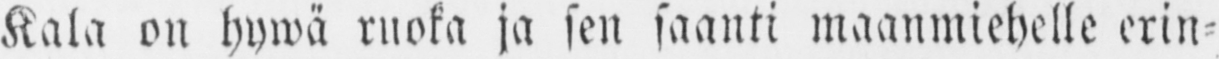Kala on hywä ruoka ja sen saanti maanmiehelle erin-
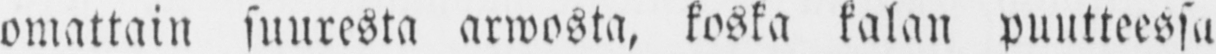omattain suuresta arwosta, koska kalan puutteessa
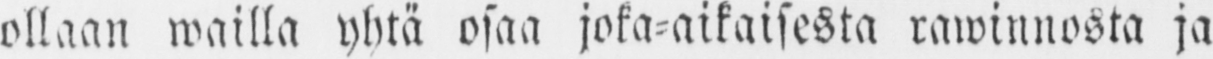ollaan wailla yhtä osaa joka-aikaisesta rawinnosta ja
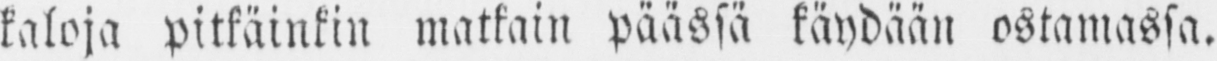kaloja pitkäinkin matkain päässä käydään ostamassa.
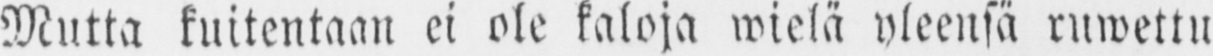Mutta kuitentaan ei ole kaloja wielä yleensä ruwettu
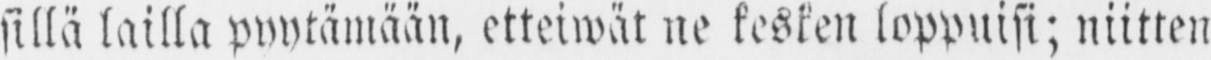sillä lailla pyytämään, etteiwät ne kesken loppuisi; niitten
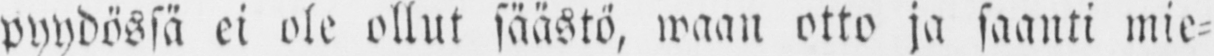pyydössä ei ole ollut säästö, waan otto ja saanti mie-
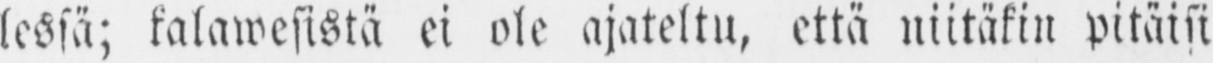lessä; kalawesistä ei ole ajateltu, että niitäkin pitäisi
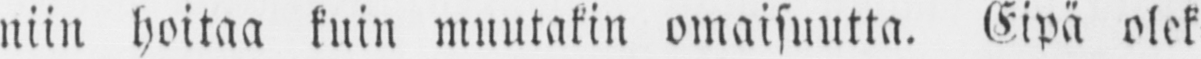niin hoitaa kuin muutakin omaisuutta. Eipä olek-
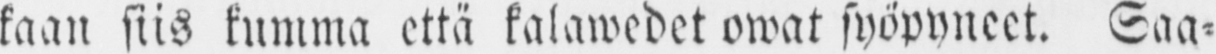kaan siis kumma että kalawedet owat syöpyneet. Saa-
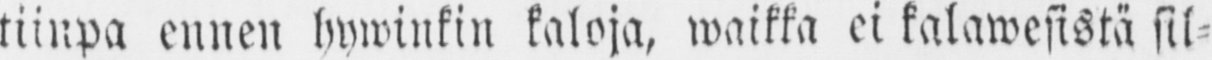tiinpa ennen hywinkin kaloja, waikka ei kalawesistä sil-
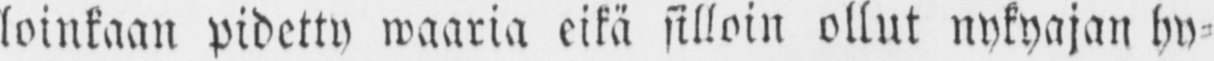loinkaan pidetty waaria eikä silloin ollut nykyajan hy-
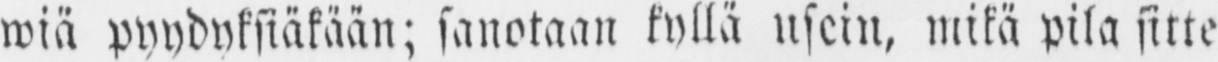wiä pyydyksiäkään; sanotaan kyllä usein, mikä pila sitte
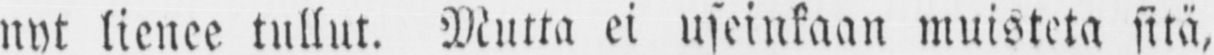nyt lienee tullut. Mutta ei useinkaan muisteta sitä,
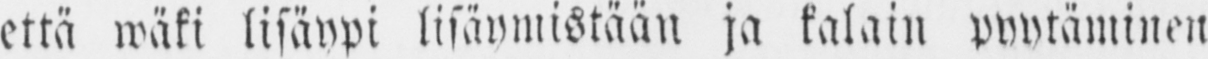että wäki lisäypi lisäymistään ja kalain pyytäminen
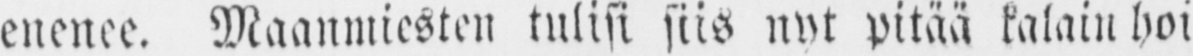enenee. Maanmiesten tulisi siis nyt pitää kalain hoi-
